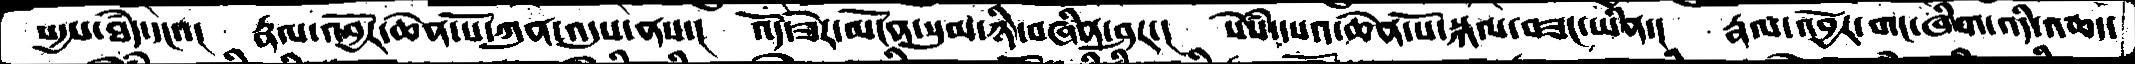སདྱས་ཐཾད་དང་་།  རྣལ་འབྱོར་ཆེན་པོ་ཀུན་འདུས་ནས་།  འོད་ཟེར་མངོན་སུམ་ཉི་བཞིན་ཤར་།  སེསཾ་དཔའ་ཆེན་པོ་སྐལ་བཟང་ཡིན་།  རྣལ་འབྱོར་གང་ཞིག་འདི་འཆད་
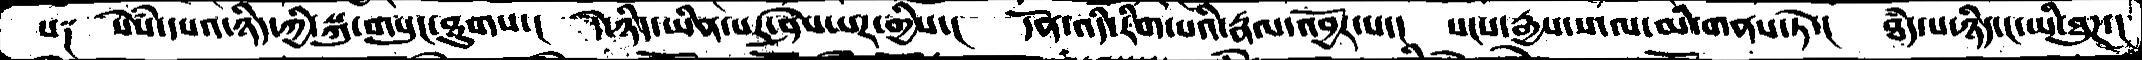པ༑   སེསཾ་དཔའ་ཉིད་ཀྱི་སྐུ་གསུང་ཐུགས་།  དེ་ཉིད་ཡིན་པར་ཤེས་པར་གྱིས་།  དོན་འདི་རིག་པའི་རྣལ་འབྱོར་པ་།  སངས་རྒྱས་ས་ལ་མི་གནས་ཏེ་།  ཐཾད་པ་ཉིད་ང་ཡི་ཐུཌ་།
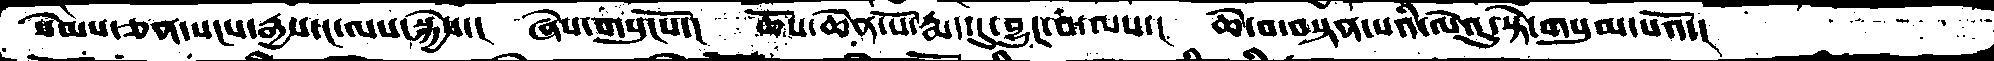སེམས་ཅན་སངས་རྒྱས་ང་ལས་སྐྱེས་།  ཞེས་གསུངསོ་།  ཆོས་ཆེན་པོ་རྨད་དུ་བྱུང་བ་ལས་།  ཆེ་བ་བསྟན་པའི་ལེའུ་སྟེ་གསུམ་པའོ་།
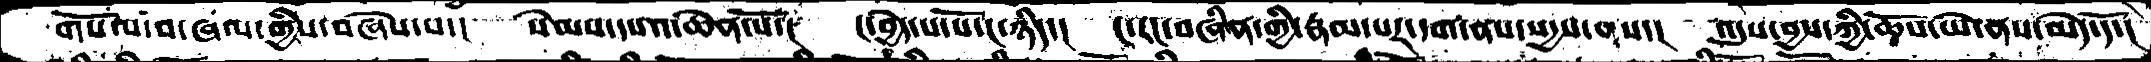གསོལ་བ་ཞལ་གྱིས་བཞེས་པ་།  སེམས་དཔའ་ཆེན་པོ་།  ང་བྱེད་པ་པོ་ང་ཉིད་།  ང་རང་བཞིན་གྱི་རྣམ་པར་དག་ནས་སདྱས་ནས་།  འདུས་བྱས་ཀྱི་ཆོས་ཡེ་ནས་མེད་དོ་།
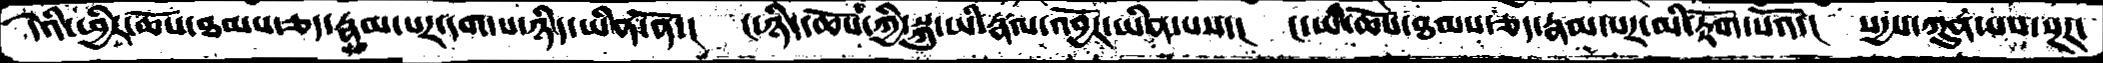དེའི་ཕྱིར་ཆོས་ཐམས་ཅད་རྣམ་པར་དག་པ་ཉིད་ཡིན་ནོ་།  ང་ཉིད་ཆོས་ཀྱི་སྐུ་ཡི་རྣལ་འབྱོར་ཡིན་པས་།  ང་ཡི་ཆོས་ཐམས་ཅད་རྣམ་པར་མི་རྟོག་པའོ་།  སདྱས་ཀུན་པས་སྔཌ་
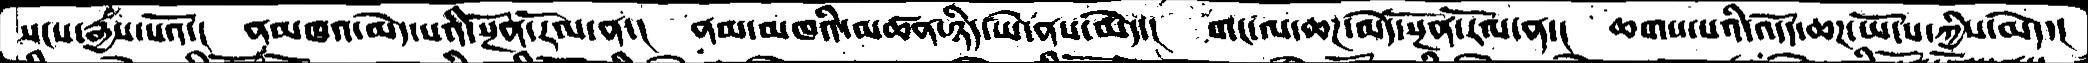སངས་རྒྱས་པའོ་།  ནམཁའ་མེད་པའི་སྔོན་རོལ་ན་།  ནམ་མཁའི་མཚན་ཉིད་ཡེ་ནས་མེད་།  གང་ལ་ཆཌ་མེད་སྔོན་རོལ་ན་།  ཆགས་པའི་འདོད་ཆཌ་ཡོངས་ཀྱིས་མེད་།
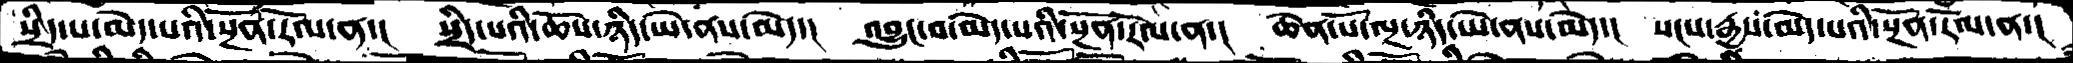སྲིད་པ་མེད་པའི་སྔོན་རོལ་ན་།  སྲིད་པའི་ཆོས་ཉིད་ཡེ་ནས་མེད་།  འབྱུང་བ་མེད་པའི་སྔོན་རོལ་ན་།  ཆེན་པོ་ལྔ་ཉིད་ཡེ་ནས་མེད་།  སངས་རྒྱས་མེད་པའི་སྔོན་རོལ་ན་།
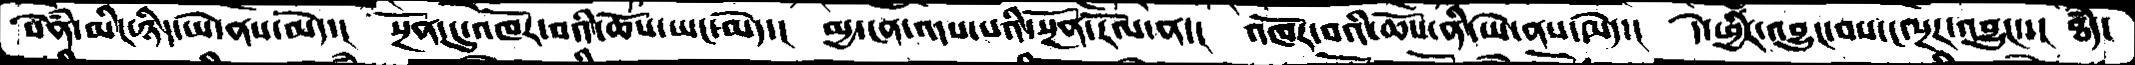སེནཾ་མིང་ཉིད་ཡེ་ནས་མེད་།  སྔོན་དུ་འཁོར་བའི་ཆོས་ཡང་མེད་།  མྱ་ངན་འདས་པའི་སྔོན་རོལ་ན་།  འཁོར་བའི་ཆོས་ནི་ཡེ་ནས་མེད་།  དེ་ཕྱིར་འབྱུང་བས་ང་སྔར་འབྱུང་་།  ཐཾད་
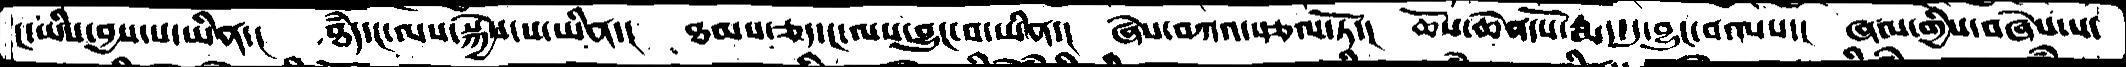ང་ཡིས་བྱས་པ་ཡིན་།  ཐཾད་ང་ལས་སྐྱེས་པ་ཡིན་།  ཐམས་ཅད་ང་ལས་བྱུང་བ་ཡིན་།  ཞེས་བཀའ་སྩལ་ཏོ་།  ཆོས་ཆེན་པོ་རྨད་དུ་བྱུང་བ་ལས་།  ཞལ་གྱིས་བཞེས་པ་
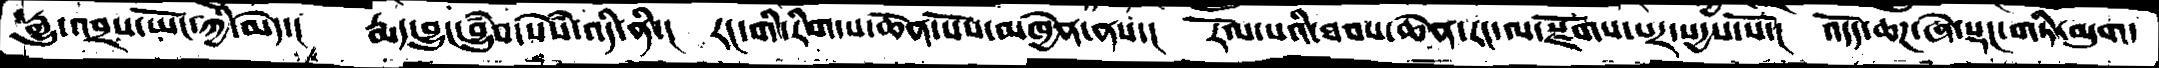རྒྱུ་འབྲས་ཡོང་ཀྱི་མེད་།  རྨད་བྱུང་བྱུཾབ་སེསྃ་འདི་ནི་།  རང་གི་རིག་པ་ཆེན་པོས་མཁྱེན་ནས་།  རོལ་པའི་ཐབས་ཆེན་རང་ལ་སྫོགས་པར་སདྱས་སོ་།  འདོད་ཆཌ་ཞེ་སྡང་གཏི་མུག་
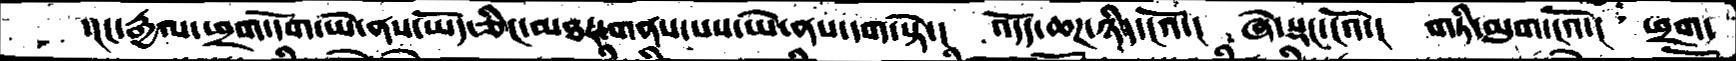་།ང་རྒྱལ་ཕྲག་དོག་ཡེ་ནས་ཡོད་ཅིང་མཐར་གནས་པས་ཡེ་ནས་དག་སྟེ་།  འདོད་ཆཌ་ཉིད་ངའོ་།  ཞེ་སྡང་ངའོ་།  གཏི་མུག་ངའོ་།  ཕྲག་
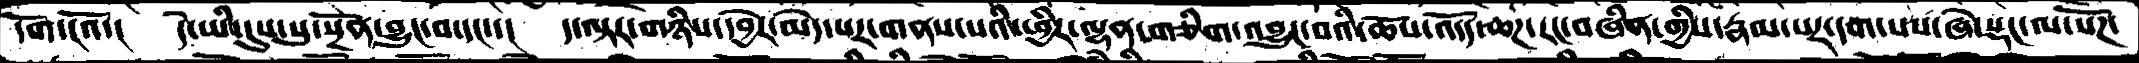དགོ་ངའོ་།  དེ་ཡི་དུས་སུ་སྔོན་བྱུང་བ་དང་་།  ད་ལྟར་གཉིས་དབྱེར་མེད་པར་གནས་པའི་ཕྱིར་ལྷན་གཅིག་འབྱུང་བའི་ཆོས་འདོད་ཆཌ་རང་བཞིན་གྱིས་རྣམ་པར་དག་པས་ཞེ་སྡང་ལ་སོཌ་
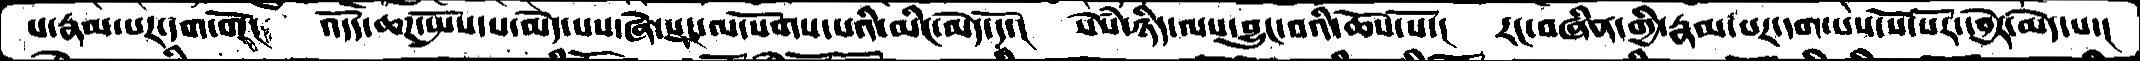པ་རྣམ་པར་དག་གོ།  འདོད་ཆཌ་སྤོས་པ་མེད་པས་ཞེ་སྡང་ལ་སོགས་པའི་མིང་མེད་དོ་།  སེསཾ་ཉིད་ལས་བྱུང་བའི་ཆོས་སོ་།   རང་བཞིན་གྱི་རྣམ་པར་དག་པས་སོ་སོར་དབྱེར་མེད་པ་།
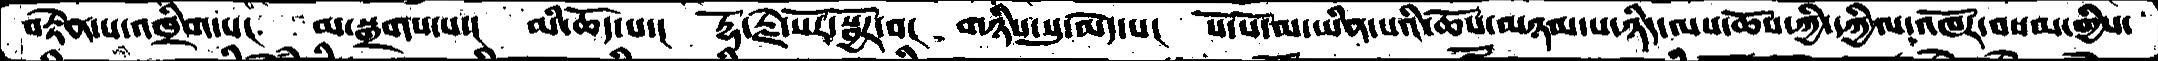བརྟེན་པ་འཁྲིག་པ།  མ་སྒྲགས་པ་།  མི་ཆོད་པ་།  རྡོ་རྗེ་སོར་སྦྱོར་བ།  གཉིས་སུ་མེད་པ།  སོ་སོ་མ་ཡིན་པའི་ཆོས་མཉམ་པ་ཉིད་ལས་ཆོས་ཀྱི་དཀྱིལ་འཁོར་བསམ་གྱིས་
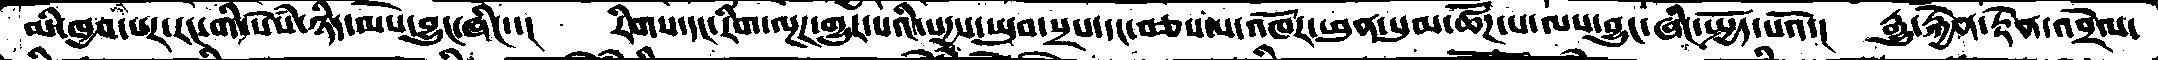མིཁྱབ་པར་རང་གི་སེསཾ་ཉིད་ལས་བྱུང་ཞིང་་།  རིགས་དང་རིག་ལྔར་གྱུར་པའི་སདྱས་ཡུབ་སྲས་དང་བཅས་པ་འཁོར་ཕུན་སུམ་ཚོཌ་པ་ལས་བྱུང་ཞིང་སྤྱོད་པའོ་།  རྒྱུ་རྐྱེན་རྟེན་འབྲེལ་
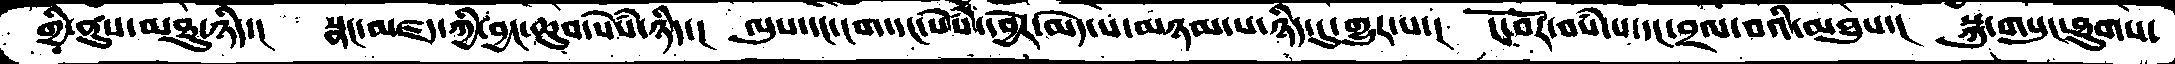གྱི་ནུས་མཐུ་ཉིད་།  སྣང་མཛད་ཀྱི་བྱང་ཆུབ་སེསཾ་ཉིད་།  ལུས་དང་ངག་དདང་སེསཾ་དབྱེར་མེད་པ་མཉམ་པ་ཉིད་དུ་གྱུར་པ་།  ངོ་བོར་བསཾ་པ་དང་བྲལ་བའི་མཐུས་།  སྐུ་གསུང་ཐུགས་
